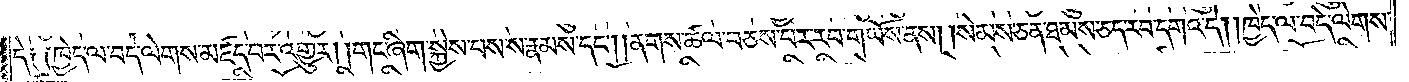དེ༑ ༑ཁྱེད་ལ་བདེ་ལེགས་མཛད་པར་འགྱུར། །གང་ཞིག་སྐྱེས་པས་ས་རྣམས་དང༌། །ནགས་ཚལ་བཅས་པར་རབ་གཡོས་ནས། །སེམས་ཅན་ཐམས་ཅད་རབ་དགའ་དེ། །ཁྱེད་ལ་བདེ་ལེགས་
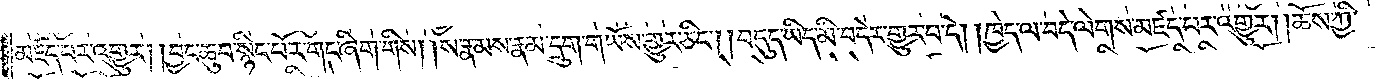མཛད་པར་འགྱུར། །བྱང་ཆུབ་སྙིང་པོར་གང་ཞིག་གིས། །ས་རྣམས་རྣམ་དྲུག་གཡོས་གྱུར་ཅིང༌། །བདུད་ཡིད་མི་བདེར་གྱུར་པ་དེ། །ཁྱེད་ལ་བདེ་ལེགས་མཛད་པར་འགྱུར། །ཆོས་ཀྱི་
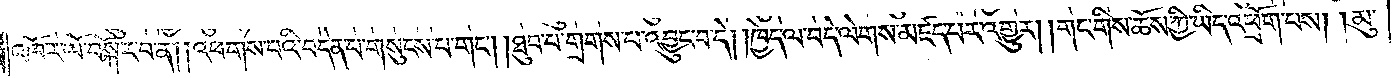འཁོར་ལོ་བསྐོར་བ་ན། །འཕགས་པའི་བདེན་པ་གསུངས་པ་གང༌། །ཐུབ་པ་གྲགས་པ་འབྱུང་བ་དེ། །ཁྱེད་ལ་བདེ་ལེགས་མཛད་པར་འགྱུར། །གང་གིས་ཆོས་ཀྱི་ཡིད་འཕྲོག་པས། །མུ་
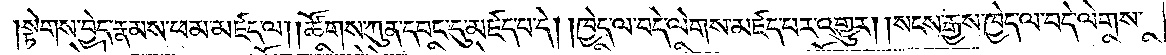སྟེགས་བྱེད་རྣམས་ཕམ་མཛད་ལ། །ཚོགས་ཀུན་དབང་དུ་མཛད་པ་དེ། །ཁྱེད་ལ་བདེ་ལེགས་མཛད་པར་འགྱུར། །སངས་རྒྱས་ཁྱེད་ལ་བདེ་ལེགས་
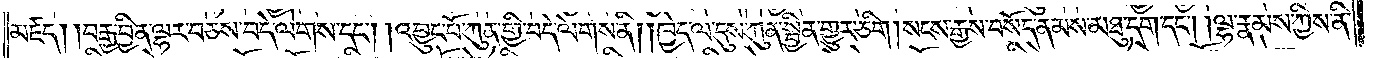མཛད། །བརྒྱ་བྱིན་ལྷར་བཅས་བདེ་ལེགས་དང༌། །འབྱུང་པོ་ཀུན་གྱི་བདེ་ལེགས་ནི། །ཁྱེད་ལ་དུས་ཀུན་སྦྱིན་གྱུར་ཅིག །སངས་རྒྱས་བསོད་ནམས་མཐུ་དག་དང༌། །ལྷ་རྣམས་ཀྱིས་ནི་
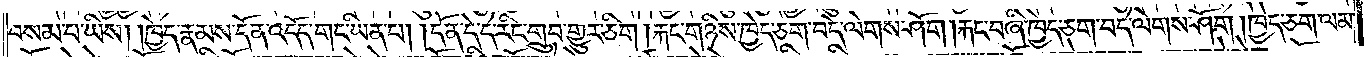བསམ་པ་ཡིས། །ཁྱེད་རྣམས་དོན་འདོད་གང་ཡིན་པ། །དོན་དེ་དེ་རིང་གྲུབ་གྱུར་ཅིག །རྐང་གཉིས་ཁྱེད་ཅག་བདེ་ལེགས་ཤོག །རྐང་བཞི་ཁྱེད་ཅག་བདེ་ལེགས་ཤོག །ཁྱེད་ཅག་ལམ་
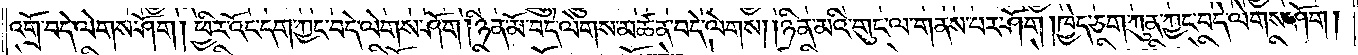འགྲོ་བདེ་ལེགས་ཤོག །ཕྱིར་འོང་དག་ཀྱང་བདེ་ལེགས་ཤོག །ཉིན་མོ་བདེ་ལེགས་མཚན་བདེ་ལེགས། །ཉིན་མའི་གུང་ལ་གནས་པར་ཤོག །ཁྱེད་ཅག་ཀུན་ཀྱང་བདེ་ལེགས་ཤོག།
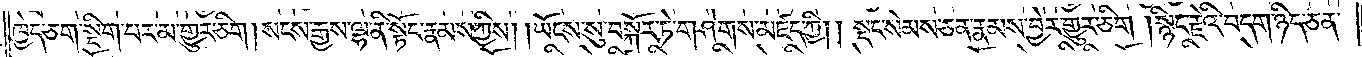ཁྱེད་ཅག་སྡིག་པར་མ་གྱུར་ཅིག །སངས་རྒྱས་ལྷ་ནི་སྟོང་རྣམས་ཀྱིས། །ཡོངས་སུ་བསྐོར་ཏེ་གཤེགས་མཛད་ཀྱི། སྡང་སེམས་ཅན་རྣམས་བྱེར་གྱུར་ཅིག །སྙིང་རྗེའི་བདག་ཉིད་ཅན་
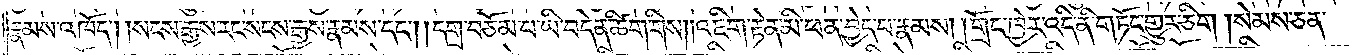རྣམས་འཁོད། །སངས་རྒྱས་རང་སངས་རྒྱས་རྣམས་དང༌། །དགྲ་བཅོམ་པ་ཡི་བདེན་ཚིག་གིས། །འཇིག་རྟེན་མི་ཕན་བྱེད་པ་རྣམས། །གྲོང་ཁྱེར་འདི་ནི་གཏོང་གྱུར་ཅིག །སེམས་ཅན་
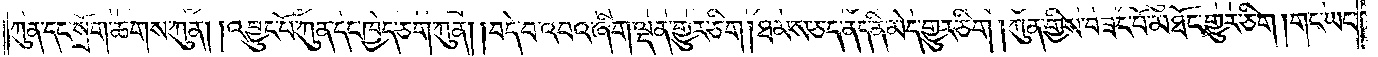ཀུན་དང་སྲོག་ཆགས་ཀུན། །འབྱུང་པོ་ཀུན་དང་ཁྱེད་ཅག་ཀུན། །བདེ་བ་འབའ་ཞིག་ལྡན་གྱུར་ཅིག །ཐམས་ཅད་ནད་ནི་མེད་གྱུར་ཅིག །ཀུན་གྱིས་བཟང་པོ་མཐོང་གྱུར་ཅིག །གང་ཡང་
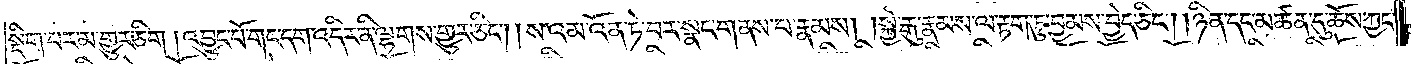སྡིག་པར་མ་གྱུར་ཅིག །འབྱུང་པོ་གང་དག་འདིར་ནི་ལྷགས་གྱུར་ཅིང༌། །ས་འམ་འོན་ཏེ་བར་སྣང་གནས་པ་རྣམས། །སྐྱེ་རྒུ་རྣམས་ལ་རྟག་ཏུ་བྱམས་བྱེད་ཅིང༌། །ཉིན་དང་མཚན་དུ་ཆོས་ཀྱང་
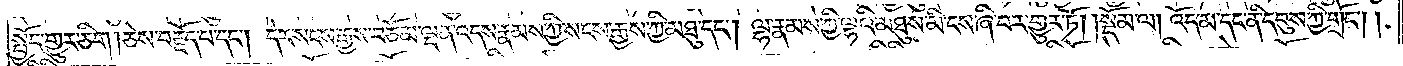སྤྱོད་གྱུར་ཅིག །ཅེས་བརྗོད་པ་དང༌། དེར་སངས་རྒྱས་བཅོམ་ལྡན་འདས་རྣམས་ཀྱི་སངས་རྒྱས་ཀྱི་མཐུ་དང༌། ལྷ་རྣམས་ཀྱི་ལྷའི་མཐུས་མི་ངས་ཞི་བར་གྱུར་ཏོ།    །སྡོམ་ལ། འོད་མ་དང་ནི་དབུས་ཀྱི་གྲོང༌། །
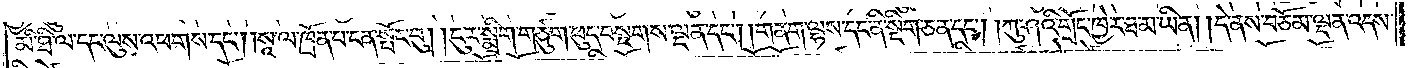མི་ཐི་ལ་དང་ལུས་འཕགས་དང༌། །སཱ་ལ་ཁྲོན་པ་ངན་སྤོང་བུ། །ངུར་སྨྲིག་གཙུག་ཕུད་བསྔགས་ལྡན་དང༌། །གནག་ལྷས་དང་ནི་སྡིག་ཅན་དང༌། །ཀུ་ཤའི་གྲོང་ཁྱེར་ཐ་མ་ཡིན། །དེ་ནས་བཅོམ་ལྡན་འདས་
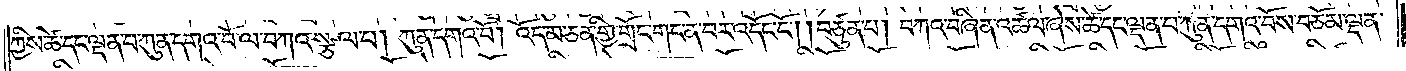གྱིས་ཚེ་དང་ལྡན་པ་ཀུན་དགའ་བོ་ལ་བཀའ་སྩལ་པ། ཀུན་དགའ་བོ། འོད་མ་ཅན་གྱི་གྲོང་གང་ན་བར་འདོང་ངོ༌། །བཙུན་པ། བཀའ་བཞིན་འཚལ་ཞེས་ཚེ་དང་ལྡན་པ་ཀུན་དགའ་བོས་བཅོམ་ལྡན་
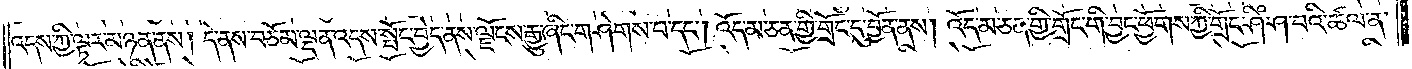འདས་ཀྱི་ལྟར་མཉན་ནས། དེ་ནས་བཅོམ་ལྡན་འདས་སྤོང་བྱེད་ནས་ལྗོངས་རྒྱུ་ཞིང་གཤེགས་པ་དང༌། འོད་མ་ཅན་གྱི་གྲོང་དུ་བྱོན་ནས། འོད་མ་ཅན་གྱི་གྲོང་གི་བྱང་ཕྱོགས་ཀྱི་གྲོང་ཤིཾ་ཤ་བའི་ཚལ་ན་
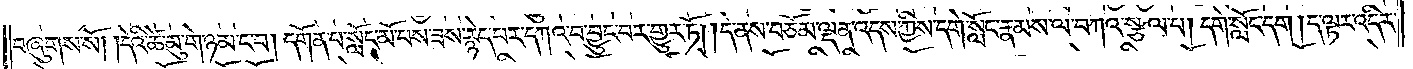བཞུགས་སོ། །དེའི་ཚེ་མུ་གེ་ཉམ་ང་བ། དགོན་པ་སློང་མོ་པས་ཟས་རྙེད་པར་དཀའ་བ་བྱུང་བར་གྱུར་ཏོ། །དེ་ནས་བཅོམ་ལྡན་འདས་ཀྱིས་དགེ་སློང་རྣམས་ལ་བཀའ་སྩལ་པ། དགེ་སློང་དག །ད་ལྟར་འདིར་
